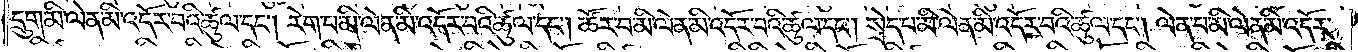དྲུག་མི་ལེན་མི་འདོར་བའི་ཚུལ་དང༌། རེག་པ་མི་ལེན་མི་འདོར་བའི་ཚུལ་དང༌། ཚོར་བ་མི་ལེན་མི་འདོར་བའི་ཚུལ་དང༌། སྲེད་པ་མི་ལེན་མི་འདོར་བའི་ཚུལ་དང༌། ལེན་པ་མི་ལེན་མི་འདོར་
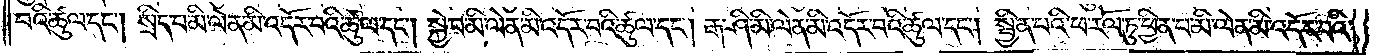བའི་ཚུལ་དང༌། སྲིད་པ་མི་ལེན་མི་འདོར་བའི་ཚུལ་དང༌། སྐྱེ་བ་མི་ལེན་མི་འདོར་བའི་ཚུལ་དང༌། རྒ་ཤི་མི་ལེན་མི་འདོར་བའི་ཚུལ་དང༌། སྦྱིན་པའི་ཕ་རོལ་ཏུ་ཕྱིན་པ་མི་ལེན་མི་འདོར་བའི་
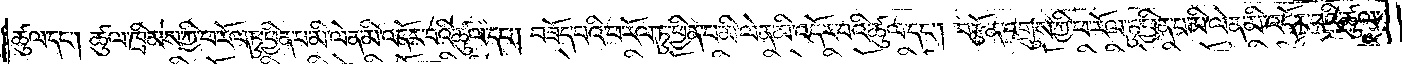ཚུལ་དང༌། ཚུལ་ཁྲིམས་ཀྱི་ཕ་རོལ་ཏུ་ཕྱིན་པ་མི་ལེན་མི་འདོར་བའི་ཚུལ་དང༌། བཟོད་པའི་ཕ་རོལ་ཏུ་ཕྱིན་པ་མི་ལེན་མི་འདོར་བའི་ཚུལ་དང༌། བརྩོན་འགྲུས་ཀྱི་ཕ་རོལ་ཏུ་ཕྱིན་པ་མི་ལེན་མི་འདོར་བའི་ཚུལ་
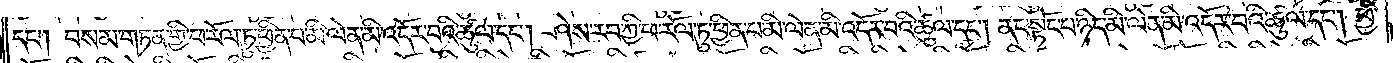དང༌། བསམ་གཏན་གྱི་ཕ་རོལ་ཏུ་ཕྱིན་པ་མི་ལེན་མི་འདོར་བའི་ཚུལ་དང༌། ཤེས་རབ་ཀྱི་ཕ་རོལ་ཏུ་ཕྱིན་པ་མི་ལེན་མི་འདོར་བའི་ཚུལ་དང༌། ནང་སྟོང་པ་ཉིད་མི་ལེན་མི་འདོར་བའི་ཚུལ་དང༌། ཕྱི་
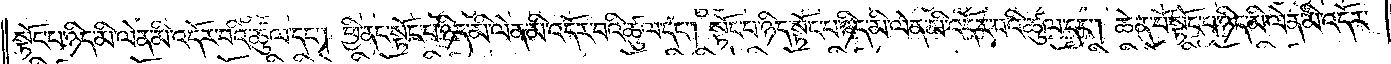སྟོང་པ་ཉིད་མི་ལེན་མི་འདོར་བའི་ཚུལ་དང༌། ཕྱི་ནང་སྟོང་པ་ཉིད་མི་ལེན་མི་འདོར་བའི་ཚུལ་དང༌། སྟོང་པ་ཉིད་སྟོང་པ་ཉིད་མི་ལེན་མི་འདོར་བའི་ཚུལ་དང༌། ཆེན་པོ་སྟོང་པ་ཉིད་མི་ལེན་མི་འདོར་
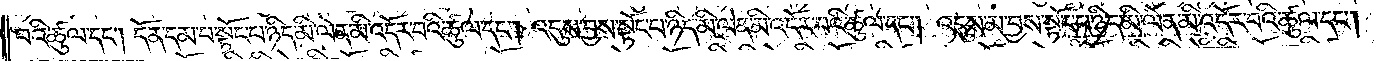བའི་ཚུལ་དང༌། དོན་དམ་པ་སྟོང་པ་ཉིད་མི་ལེན་མི་འདོར་བའི་ཚུལ་དང༌། འདུས་བྱས་སྟོང་པ་ཉིད་མི་ལེན་མི་འདོར་བའི་ཚུལ་དང༌། འདུས་མ་བྱས་སྟོང་པ་ཉིད་མི་ལེན་མི་འདོར་བའི་ཚུལ་དང༌།
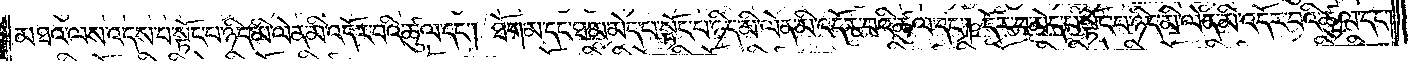མཐའ་ལས་འདས་པ་སྟོང་པ་ཉིད་མི་ལེན་མི་འདོར་བའི་ཚུལ་དང༌། ཐོག་མ་དང་ཐ་མ་མེད་པ་སྟོང་པ་ཉིད་མི་ལེན་མི་འདོར་བའི་ཚུལ་དང༌། དོར་བ་མེད་པ་སྟོང་པ་ཉིད་མི་ལེན་མི་འདོར་བའི་ཚུལ་དང༌།
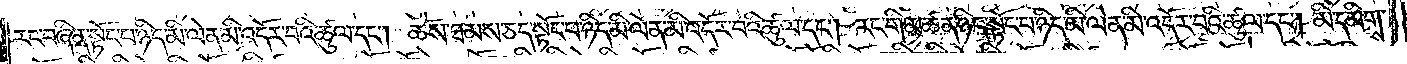རང་བཞིན་སྟོང་པ་ཉིད་མི་ལེན་མི་འདོར་བའི་ཚུལ་དང༌། ཆོས་ཐམས་ཅད་སྟོང་པ་ཉིད་མི་ལེན་མི་འདོར་བའི་ཚུལ་དང༌། རང་གི་མཚན་ཉིད་སྟོང་པ་ཉིད་མི་ལེན་མི་འདོར་བའི་ཚུལ་དང༌། མི་དམིགས་
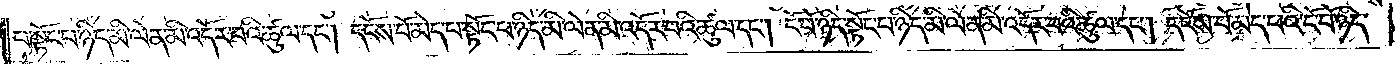པ་སྟོང་པ་ཉིད་མི་ལེན་མི་འདོར་བའི་ཚུལ་དང༌། དངོས་པོ་མེད་པ་སྟོང་པ་ཉིད་མི་ལེན་མི་འདོར་བའི་ཚུལ་དང༌། ངོ་བོ་ཉིད་སྟོང་པ་ཉིད་མི་ལེན་མི་འདོར་བའི་ཚུལ་དང༌། དངོས་པོ་མེད་པའི་ངོ་བོ་ཉིད་
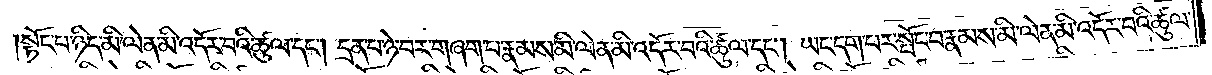སྟོང་པ་ཉིད་མི་ལེན་མི་འདོར་བའི་ཚུལ་དང༌། དྲན་པ་ཉེ་བར་གཞག་པ་རྣམས་མི་ལེན་མི་འདོར་བའི་ཚུལ་དང༌། ཡང་དག་པར་སྤོང་བ་རྣམས་མི་ལེན་མི་འདོར་བའི་ཚུལ་
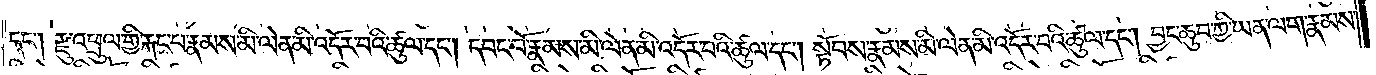དང༌། རྫུ་འཕྲུལ་གྱི་རྐང་པ་རྣམས་མི་ལེན་མི་འདོར་བའི་ཚུལ་དང༌། དབང་པོ་རྣམས་མི་ལེན་མི་འདོར་བའི་ཚུལ་དང༌། སྟོབས་རྣམས་མི་ལེན་མི་འདོར་བའི་ཚུལ་དང༌། བྱང་ཆུབ་ཀྱི་ཡན་ལག་རྣམས་
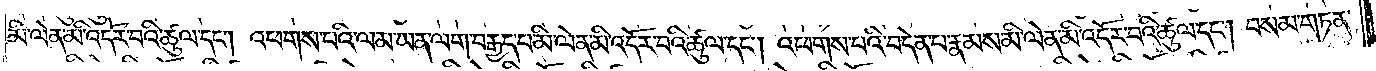མི་ལེན་མི་འདོར་བའི་ཚུལ་དང༌། འཕགས་པའི་ལམ་ཡན་ལག་བརྒྱད་པ་མི་ལེན་མི་འདོར་བའི་ཚུལ་དང༌། འཕགས་པའི་བདེན་པ་རྣམས་མི་ལེན་མི་འདོར་བའི་ཚུལ་དང༌། བསམ་གཏན་
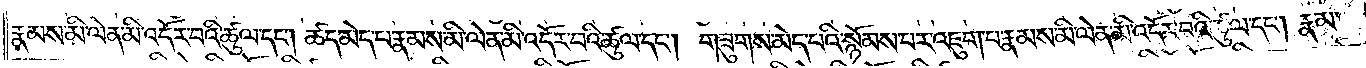རྣམས་མི་ལེན་མི་འདོར་བའི་ཚུལ་དང༌། ཚད་མེད་པ་རྣམས་མི་ལེན་མི་འདོར་བའི་ཚུལ་དང༌། གཟུགས་མེད་པའི་སྙོམས་པར་འཇུག་པ་རྣམས་མི་ལེན་མི་འདོར་བའི་ཚུལ་དང༌། རྣམ་
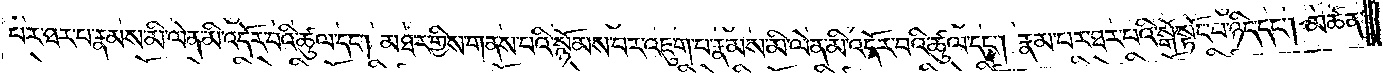པར་ཐར་པ་རྣམས་མི་ལེན་མི་འདོར་བའི་ཚུལ་དང༌། མཐར་གྱིས་གནས་པའི་སྙོམས་པར་འཇུག་པ་རྣམས་མི་ལེན་མི་འདོར་བའི་ཚུལ་དང༌། རྣམ་པར་ཐར་པའི་སྒོ་སྟོང་པ་ཉིད་དང༌། མཚན་
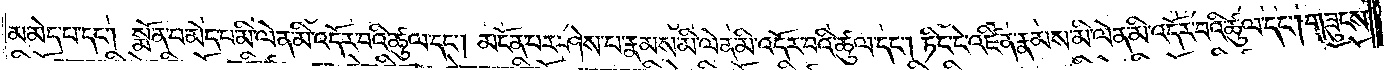མ་མེད་པ་དང༌། སྨོན་པ་མེད་པ་མི་ལེན་མི་འདོར་བའི་ཚུལ་དང༌། མངོན་པར་ཤེས་པ་རྣམས་མི་ལེན་མི་འདོར་བའི་ཚུལ་དང༌། ཏིང་ངེ་འཛིན་རྣམས་མི་ལེན་མི་འདོར་བའི་ཚུལ་དང༌། གཟུངས་
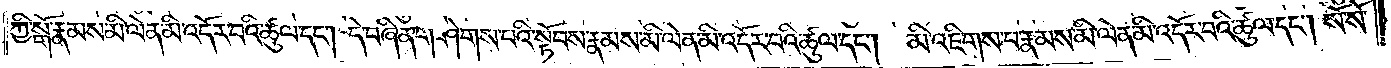ཀྱི་སྒོ་རྣམས་མི་ལེན་མི་འདོར་བའི་ཚུལ་དང༌། དེ་བཞིན་གཤེགས་པའི་སྟོབས་རྣམས་མི་ལེན་མི་འདོར་བའི་ཚུལ་དང༌། མི་འཇིགས་པ་རྣམས་མི་ལེན་མི་འདོར་བའི་ཚུལ་དང༌། སོ་སོ་
